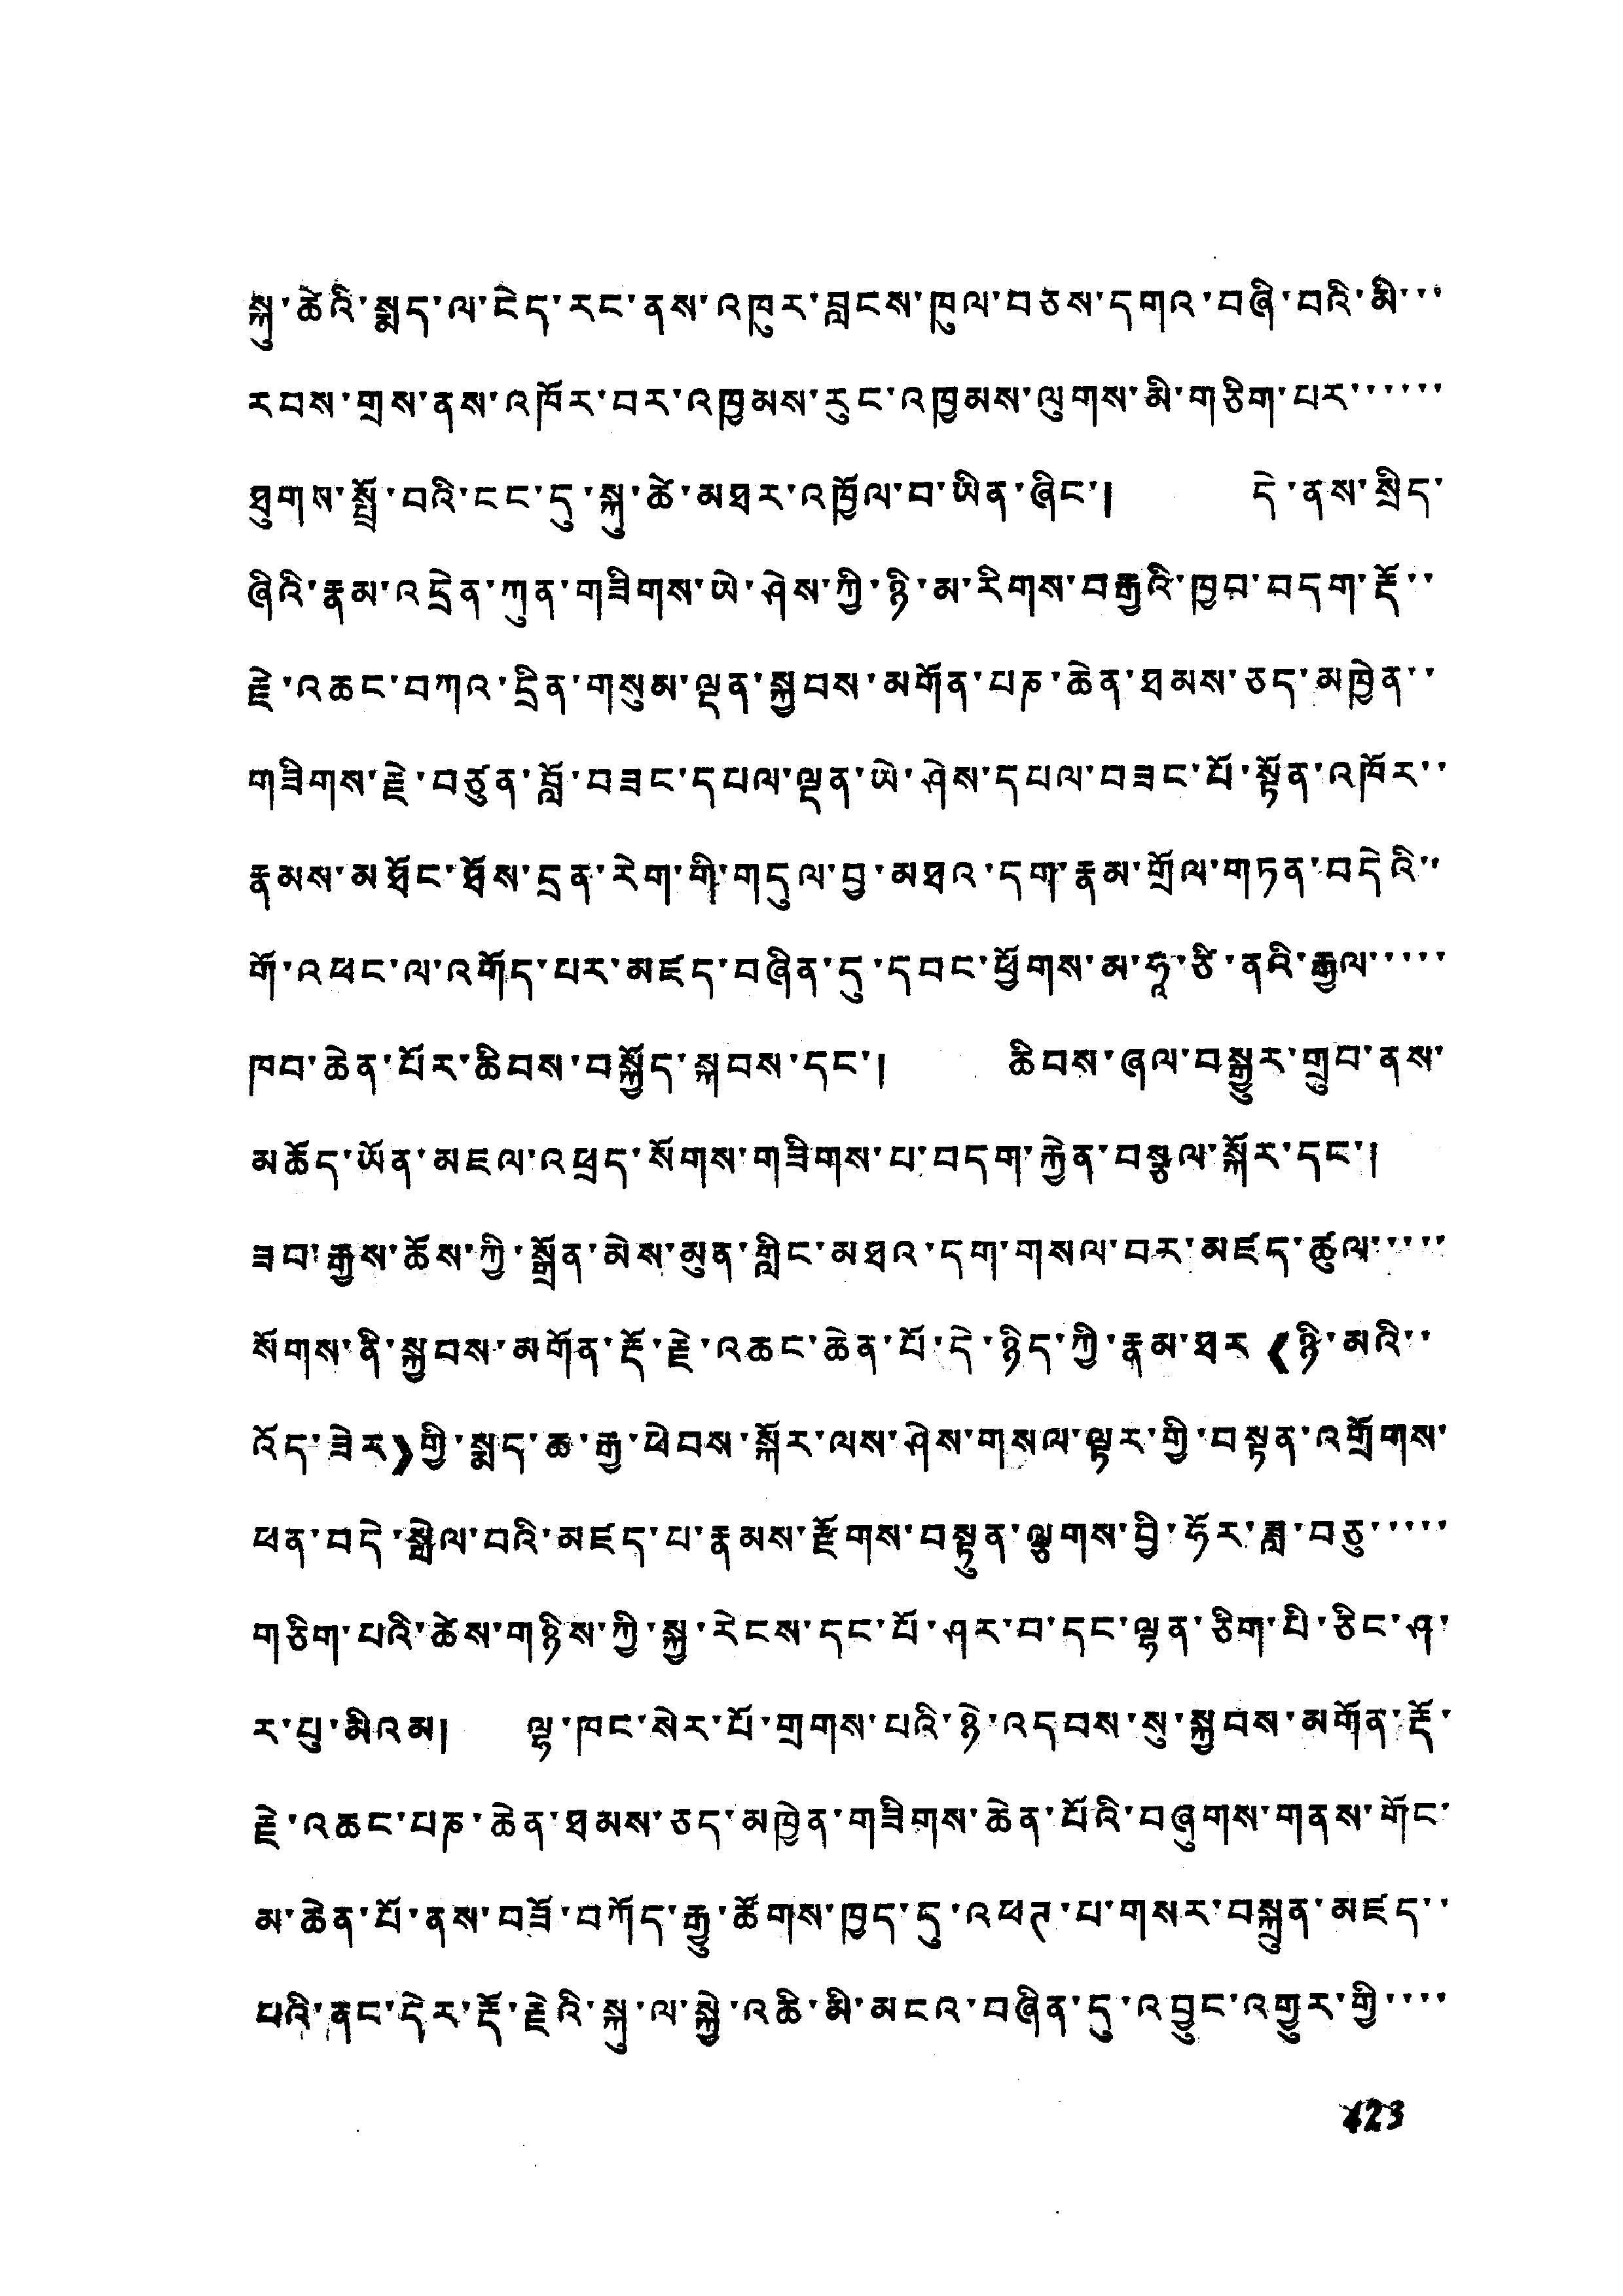སྐུ་ཚེའི་སྨད་ལ་ངེད་རང་ནས་འཁུར་བླངས་ཁུལ་བཅས་དགའ་བཞི་བའི་མི་་་
རབས་གྲས་ནས་འཁོར་བར་འཁྱམས་རུང་འཁྱམས་ལུགས་མི་གཅིག་པར་་་་་་
ཐུགས་སྤྲོ་བའི་ངང་དུ་སྐུ་ཚེ་མཐར་འཁྱོལ་བ་ཡིན་ཞིང་། དེ་ནས་སྲིད་
ཞིའི་རྣམ་འདྲེན་ཀུན་གཟིགས་ཡེ་ཤེས་ཀྱི་ཉི་མ་རིགས་བརྒྱའི་ཁྱབ་བདག་རྡོ་་
རྗེ་འཆང་བཀའ་དྲིན་གསུམ་ལྡན་སྐྱབས་མགོན་པཎ་ཆེན་ཐམས་ཅད་མཁྱེན་་
གཟིགས་རྗེ་བཙུན་བློ་བཟང་དཔལ་ལྡན་ཡེ་ཤེས་དཔལ་བཟང་པོ་སྟོན་འཁོར་་
རྣམས་མཐོང་ཐོས་དྲན་རེག་གི་གདུལ་བྱ་མཐའ་དག་རྣམ་གྲོལ་གཏན་བདེའི་་
གོ་འཕང་ལ་འགོད་པར་མཛད་བཞིན་དུ་དབང་ཕྱོགས་མ་ཧཱ་ཙི་ནའི་རྒྱལ་་་་་
ཁབ་ཆེན་པོར་ཆིབས་བསྐྱོད་སྐབས་དང་། ཆིབས་ཞལ་བསྒྱུར་གྲུབ་ནས་
མཆོད་ཡོན་མཇལ་འཕྲད་སོགས་གཟིགས་པ་བདག་རྐྱེན་བསྩལ་སྐོར་དང་།
ཟབ་རྒྱས་ཆོས་ཀྱི་སྒྲོན་མེས་མུན་གླིང་མཐའ་དག་གསལ་བར་མཛད་ཚུལ་་་་་
སོགས་ནི་སྐྱབས་མགོན་རྡོ་རྗེ་འཆང་ཆེན་པོ་དེ་ཉིད་ཀྱི་རྣམ་ཐར《ཉི་མའི་་
འོད་ཟེར》གྱི་སྨད་ཆ་རྒྱ་ཕེབས་སྐོར་ལས་ཤེས་གསལ་ལྟར་གྱི་བསྟན་འགྲོགས་
ཕན་བདེ་སྤེལ་བའི་མཛད་པ་རྣམས་རྫོགས་བསྟུན་ལྕགས་བྱི་ཧོར་ཟླ་བཅུ་་་་་
གཅིག་པའི་ཚེས་གཉིས་ཀྱི་སྐྱ་རེངས་དང་པོ་ཤར་བ་དང་ལྷན་ཅིག་པི་ཅིང་ཤ་
ར་པུ་མིའམ། ལྷ་ཁང་སེར་པོར་གྲགས་པའི་ཉེ་འདབས་སུ་སྐྱབས་མགོན་རྡོ་
རྗེ་འཆང་པཎ་ཆེན་ཐམས་ཅད་མཁྱེན་གཟིགས་ཆེན་པོའི་བཞུགས་གནས་གོང་
མ་ཆེན་པོ་ནས་བཟོ་བཀོད་རྒྱུ་ཚོགས་ཁྱད་དུ་འཕགས་པ་གསར་བསྐྲུན་མཛད་་
པའི་ནང་དེར་རྡོ་རྗེའི་སྐུ་ལ་སྐྱེ་འཆི་མི་མངའ་བཞིན་དུ་འབྱུང་འགྱུར་གྱི་་་་
423
